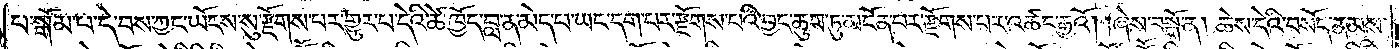པ་སྒོམ་པ་དེ་བས་ཀྱང་ཡོངས་སུ་རྫོགས་པར་གྱུར་པ་དེའི་ཚེ་ཁྱོད་བླ་ན་མེད་པ་ཡང་དག་པར་རྫོགས་པའི་བྱང་ཆུབ་ཏུ་མངོན་པར་རྫོགས་པར་འཚང་རྒྱའོ། །ཞེས་བསྒོ་ན། ཆེས་དེའི་བསོད་ནམས་
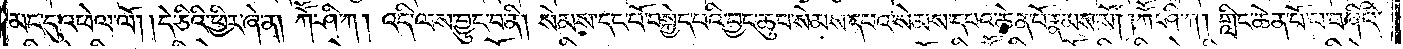མང་དུ་འཕེལ་ལོ། །དེ་ཅིའི་ཕྱིར་ཞེ་ན། ཀཽ་ཤི་ཀ། འདི་ལས་བྱུང་བ་ནི། སེམས་དང་པོ་བསྐྱེད་པའི་བྱང་ཆུབ་སེམས་དཔའ་སེམས་དཔའ་ཆེན་པོ་རྣམས་སོ། །ཀཽ་ཤི་ཀ། གླིང་ཆེན་པོ་པ་བཞིའི་
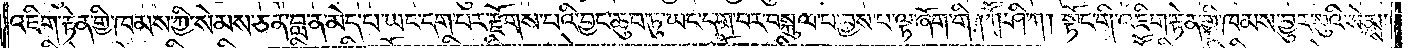འཇིག་རྟེན་གྱི་ཁམས་ཀྱི་སེམས་ཅན་བླ་ན་མེད་པ་ཡང་དག་པར་རྫོགས་པའི་བྱང་ཆུབ་ཏུ་ཡང་དག་པར་བསྐུལ་བ་བྱས་པ་ལྟ་ཞོག་གི །ཀཽ་ཤི་ཀ། སྟོང་གི་འཇིག་རྟེན་གྱི་ཁམས་བྱུར་བུའི་སེམས་
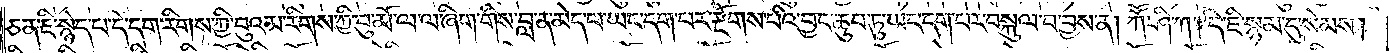ཅན་ཇི་སྙེད་བ་དེ་དག་རིགས་ཀྱི་བུའམ་རིགས་ཀྱི་བུ་མོ་ལ་ལ་ཞིག་གིས་བླ་ན་མེད་པ་ཡང་དག་པར་རྫོགས་པའི་བྱང་ཆུབ་ཏུ་ཡང་དག་པར་བསྐུལ་བ་བྱས་ན། ཀཽ་ཤི་ཀ། དེ་ཇི་སྙམ་དུ་སེམས།
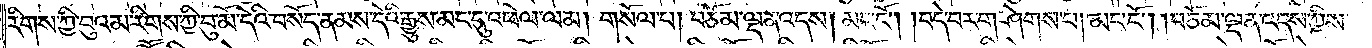རིགས་ཀྱི་བུའམ་རིགས་ཀྱི་བུ་མོ་དེའི་བསོད་ནམས་དེའི་རྒྱུས་མང་དུ་འཕེལ་ལམ། གསོལ་པ། བཅོམ་ལྡན་འདས། མང་ངོ༌། །བདེ་བར་གཤེགས་བ། མང་ངོ༌། །བཅོམ་ལྡན་འདས་ཀྱིས་
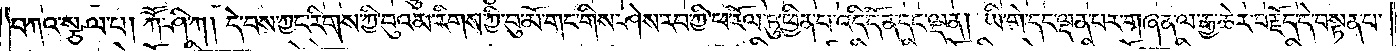བཀའ་སྩལ་པ། ཀཽ་ཤི་ཀ། དེ་བས་ཀྱང་རིགས་ཀྱི་བུའམ་རིགས་ཀྱི་བུ་མོ་གང་གིས་ཤེས་རབ་ཀྱི་ཕ་རོལ་ཏུ་ཕྱིན་པ་འདི་དོན་དང་ལྡན། ཡི་གེ་དང་ལྡན་པར་གཞན་ལ་རྒྱ་ཆེར་བརྗོད་དེ་བསྟན་པ་
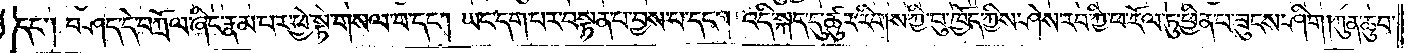དང༌། བཤད་དེ་བཀྲོལ་ཞིང་རྣམ་པར་ཕྱེ་སྟེ་གསལ་བ་དང༌། ཡང་དག་པར་བསྟན་པ་བྱས་པ་དང༌། འདི་སྐད་དུ་ཆུར་རིགས་ཀྱི་བུ་ཁྱོད་ཀྱིས་ཤེས་རབ་ཀྱི་ཕ་རོལ་ཏུ་ཕྱིན་པ་ཟུངས་ཤིག །ཀུན་ཆུབ་
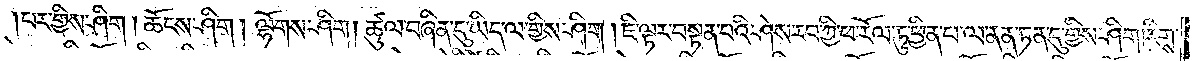པར་གྱིས་ཤིག །ཆོངས་ཤིག །ལྷོགས་ཤིག །ཚུལ་བཞིན་དུ་ཡིད་ལ་གྱིས་ཤིག །ཇི་ལྟར་བསྟན་པའི་ཤེས་རབ་ཀྱི་ཕ་རོལ་ཏུ་ཕྱིན་པ་ལ་ནན་ཏན་དུ་གྱིས་ཤིག །རིགས་
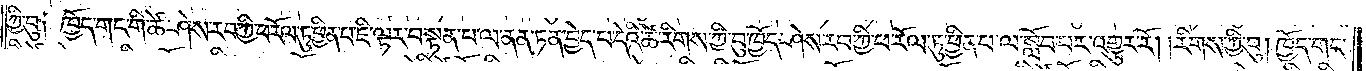ཀྱི་བུ༑ ཁྱོད་གང་གི་ཚེ་ཤེས་རབ་ཀྱི་ཕ་རོལ་ཏུ་ཕྱིན་པ་ཇི་ལྟར་བསྟན་པ་ལ་ནན་ཏན་བྱེད་བ་པའི་ཚེ་རིགས་ཀྱི་བུ་ཁྱོད་ཤེས་རབ་ཀྱི་ཕ་རོལ་ཏུ་ཕྱིན་པ་ལ་སློབ་པར་འགྱུར་རོ། །རིགས་ཀྱི་བུ། ཁྱོད་གང་
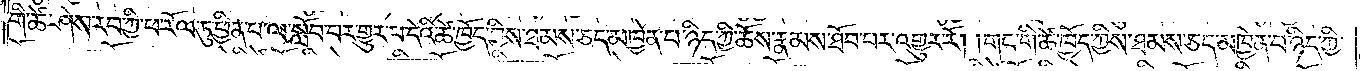གི་ཚེ་ཤེས་རབ་ཀྱི་ཕ་རོལ་ཏུ་ཕྱིན་པ་ལ་སློབ་པར་གྱུར་པ་དེའི་ཚེ་ཁྱོད་ཀྱིས་ཐམས་ཅད་མཁྱེན་པ་ཉིད་ཀྱི་ཆོས་རྣམས་ཐོབ་པར་འགྱུར་རོ། །གང་གི་ཚེ་ཁྱོད་ཀྱིས་ཐམས་ཅད་མཁྱེན་པ་ཉིད་ཀྱི་
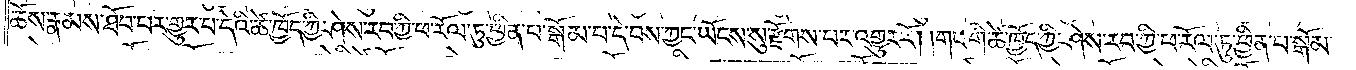ཆོས་རྣམས་ཐོབ་པར་གྱུར་པ་དེའི་ཚེ་ཁྱོད་ཀྱི་ཤེས་རབ་ཀྱི་ཕ་རོལ་ཏུ་ཕྱིན་པ་སྒོམ་པ་དེ་བས་ཀྱང་ཡོངས་སུ་རྫོགས་པར་འགྱུར་རོ། །གང་གི་ཚེ་ཁྱོད་ཀྱི་ཤེས་རབ་ཀྱི་ཕ་རོལ་ཏུ་ཕྱིན་པ་སྒོམ་
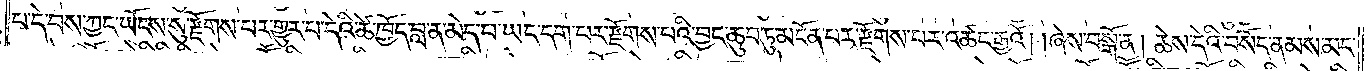པ་དེ་བས་ཀྱང་ཡོངས་སུ་རྫོགས་པར་གྱུར་པ་དེའི་ཚེ་ཁྱོད་བླ་ན་མེད་པ་ཡང་དག་པར་རྫོགས་པའི་བྱང་ཆུབ་ཏུ་མངོན་པར་རྫོགས་པར་འཚང་རྒྱའོ། །ཞེས་བསྒོ་ན། ཆེས་དེའི་བསོད་ནམས་མང་
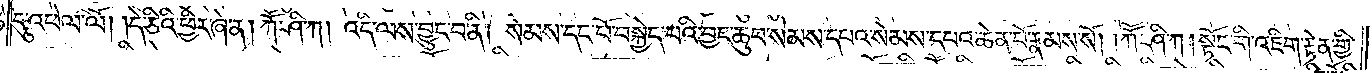དུ་འཕེལ་ལོ། །དེ་ཅིའི་ཕྱིར་ཞེ་ན། ཀཽ་ཤི་ཀ། འདི་ལས་བྱུང་བ་ནི། སེམས་དང་པོ་བསྐྱེད་པའི་བྱང་ཆུབ་སེམས་དཔའ་སེམས་དཔའ་ཆེན་པོ་རྣམས་སོ། །ཀཽ་ཤི་ཀ། སྟོང་གི་འཇིག་རྟེན་གྱི་
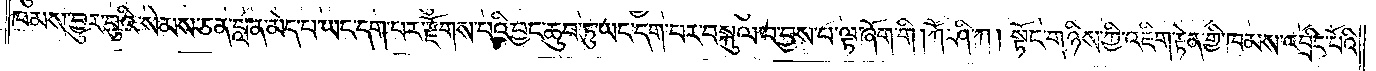ཁམས་བྱུར་བུའི་སེམས་ཅན་བླ་ན་མེད་པ་ཡང་དག་པར་རྫོགས་པའི་བྱང་ཆུབ་ཏུ་ཡང་དག་པར་བསྐུལ་བ་བྱས་པ་ལྟ་ཞོག་གི །ཀཽ་ཤི་ཀ། སྟོང་གཉིས་ཀྱི་འཇིག་རྟེན་གྱི་ཁམས་འབྲིང་པོའི་
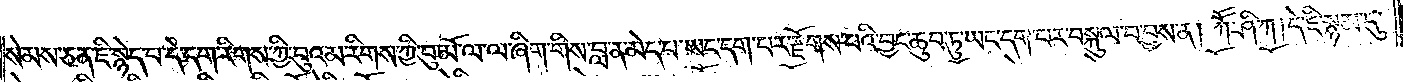སེམས་ཅན་ཇི་སྙེད་པ་དེ་དག་རིགས་ཀྱི་བུའམ་རིགས་ཀྱི་བུ་མོ་ལ་ལ་ཞིག་གིས་བླ་ན་མེད་པ་ཡང་དག་པར་རྫོགས་པའི་བྱང་ཆུབ་ཏུ་ཡང་དག་པར་བསྐུལ་བ་བྱས་ན། ཀཽ་ཤི་ཀ། དེ་ཇི་སྙམ་དུ་
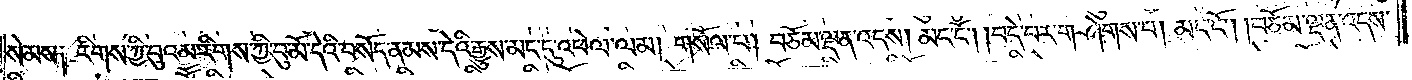སེམས༑ རིགས་ཀྱི་བུའམ་རིགས་ཀྱི་བུ་མོ་དེའི་བསོད་ནམས་དེའི་རྒྱུས་མང་དུ་འཕེལ་ལམ། གསོལ་པ། བཅོམ་ལྡན་འདས། མང་ངོ༌། །བདེ་བར་གཤེགས་པ། མང་ངོ༌། །བཅོམ་ལྡན་འདས་
